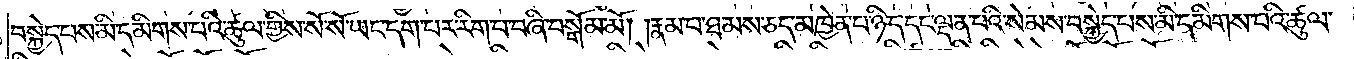བསྐྱེད་པས་མི་དམིགས་པའི་ཚུལ་གྱིས་སོ་སོ་ཡང་དག་པར་རིག་པ་བཞི་བསྒོམ་མོ། །རྣམ་པ་ཐམས་ཅད་མཁྱེན་པ་ཉིད་དང་ལྡན་པའི་སེམས་བསྐྱེད་པས་མི་དམིགས་པའི་ཚུལ་
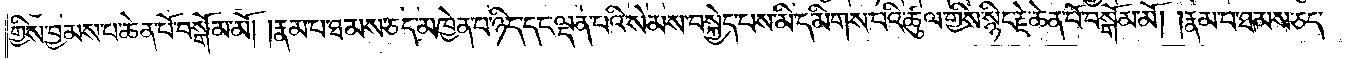གྱིས་བྱམས་པ་ཆེན་པོ་བསྒོམ་མོ། །རྣམ་པ་ཐམས་ཅད་མཁྱེན་པ་ཉིད་དང་ལྡན་པའི་སེམས་བསྐྱེད་པས་མི་དམིགས་པའི་ཚུལ་གྱིས་སྙིང་རྗེ་ཆེན་པོ་བསྒོམ་མོ། །རྣམ་པ་ཐམས་ཅད་
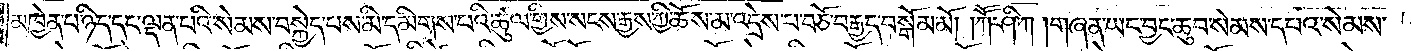མཁྱེན་པ་ཉིད་དང་ལྡན་པའི་སེམས་བསྐྱེད་པས་མི་དམིགས་པའི་ཚུལ་གྱིས་སངས་རྒྱས་ཀྱི་ཆོས་མ་འདྲེས་པ་བཅོ་བརྒྱད་བསྒོམ་མོ། །ཀཽ་ཤི་ཀ །གཞན་ཡང་བྱང་ཆུབ་སེམས་དཔའ་སེམས་
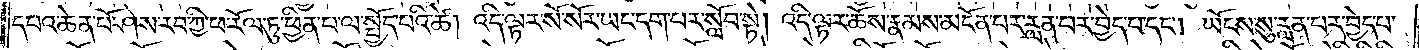དཔའ་ཆེན་པོ་ཤེས་རབ་ཀྱི་ཕ་རོལ་ཏུ་ཕྱིན་པ་ལ་སྤྱོད་པའི་ཚེ། འདི་ལྟར་སོ་སོར་ཡང་དག་པར་སློབ་སྟེ། འདི་ལྟར་ཆོས་རྣམས་མངོན་པར་རླན་པར་བྱེད་པ་དང༌། ཡོངས་སུ་རླན་པར་བྱེད་པ་
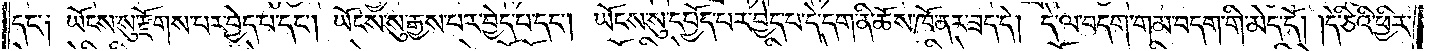དང༌༏ ཡོངས་སུ་རྫོགས་པར་བྱེད་པ་དང༌། ཡོངས་སུ་རྒྱས་པར་བྱེད་པ་དང༌། ཡོངས་སུ་དཔྱོད་པར་བྱེད་པ་དེ་དག་ནི་ཆོས་ཁོ་ནར་ཟད་དེ། དེ་ལ་བདག་གམ་བདག་གི་མེད་དོ། །དེ་ཅིའི་ཕྱིར་
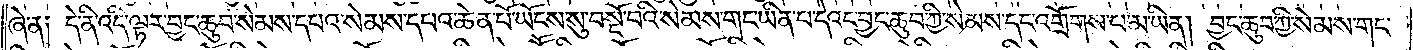ཞེ་ན༏ དེ་ནི་འདི་ལྟར་བྱང་ཆུབ་སེམས་དཔའ་སེམས་དཔའ་ཆེན་པོ་ཡོངས་སུ་བསྔོ་བའི་སེམས་གང་ཡིན་པ་དེའང་བྱང་ཆུབ་ཀྱི་སེམས་དང་འགྲོགས་པ་མ་ཡིན། བྱང་ཆུབ་ཀྱི་སེམས་གང་
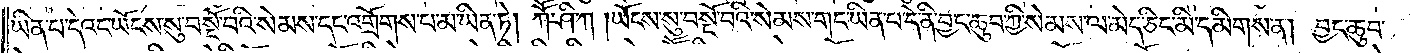ཡིན་པ་དེའང་ཡོངས་སུ་བསྔོ་བའི་སེམས་དང་འགྲོགས་པ་མ་ཡིན་ཏེ། ཀཽ་ཤི་ཀ །ཡོངས་སུ་བསྔོ་བའི་སེམས་གང་ཡིན་པ་དེ་ནི་བྱང་ཆུབ་སེམས་ལ་མེད་ཅིང་མི་དམིགས་ན། བྱང་ཆུབ་
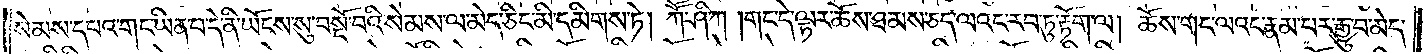སེམས་གང་ཡིན་པ་དེ་ནི་ཡོངས་སུ་བསྔོ་བའི་སེམས་ལ་མེད་ཅིང་མི་དམིགས་ཏེ། ཀཽ་ཤི་ཀ །གང་དེ་ལྟར་ཆོས་ཐམས་ཅད་ལའང་རབ་ཏུ་རྟོག་ལ། ཆོས་གང་ལའང་རྣམ་པར་རྒྱུ་བ་མེད་
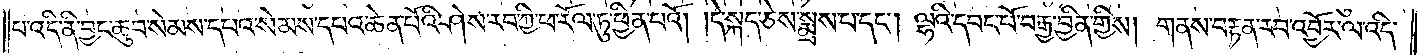པ་འདི་ནི་བྱང་ཆུབ་སེམས་དཔའ་སེམས་དཔའ་ཆེན་པོའི་ཤེས་རབ་ཀྱི་ཕ་རོལ་ཏུ་ཕྱིན་པའོ། །དེ་སྐད་ཅེས་སྨྲས་པ་དང༌། ལྷའི་དབང་པོ་བརྒྱ་བྱིན་གྱིས། གནས་བརྟན་རབ་འབྱོར་ལ་འདི་
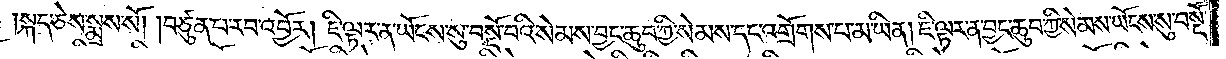སྐད་ཅེས་སྨས་སོ། །བཙུན་པ་རབ་འབྱོར། ཇི་ལྟར་ན་ཡོངས་སུ་བསྔོ་བའི་སེམས་བྱང་ཆུབ་ཀྱི་སེམས་དང་འགྲོགས་པ་མ་ཡིན། ཇི་ལྟར་ན་བྱང་ཆུབ་ཀྱི་སེམས་ཡོངས་སུ་བསྔོ་
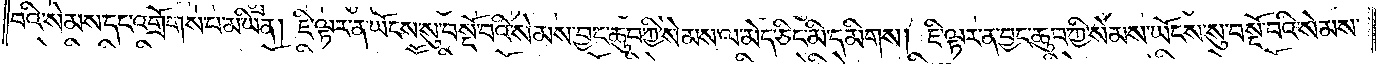བའི་སེམས་དང་འགྲོགས་པ་མ་ཡིན། ཇི་ལྟར་ན་ཡོངས་སུ་བསྔོ་བའི་སེམས་བྱང་ཆུབ་ཀྱི་སེམས་ལ་མེད་ཅིང་མི་དམིགས། ཇི་ལྟར་ན་བྱང་ཆུབ་ཀྱི་སེམས་ཡོངས་སུ་བསྔོ་བའི་སེམས་
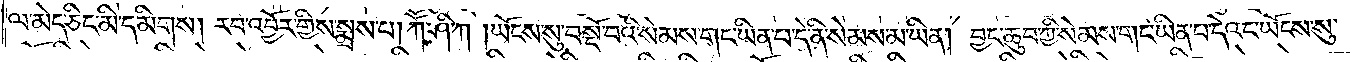ལ་མེད་ཅིང་མི་དམིགས། རབ་འབྱོར་གྱིས་སྨྲས་པ། ཀཽ་ཤི་ཀ །ཡོངས་སུ་བསྔོ་བའི་སེམས་གང་ཡིན་པ་དེ་ནི་སེམས་མ་ཡིན། བྱང་ཆུབ་ཀྱི་སེམས་གང་ཡིན་པ་དེའང་ཡོངས་སུ་
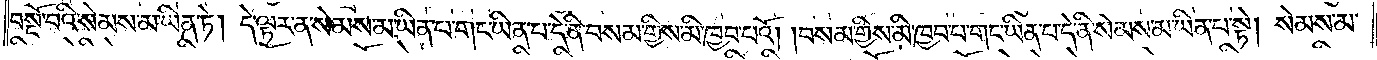བསྔོ་བའི་སེམས་མ་ཡིན་ཏེ། དེ་ལྟར་ན་སེམས་མ་ཡིན་པ་གང་ཡིན་པ་དེ་ནི་བསམ་གྱིས་མི་ཁྱབ་པའོ། །བསམ་གྱིས་མི་ཁྱབ་པ་གང་ཡིན་པ་དེ་ནི་སེམས་མ་ཡིན་པ་སྟེ། སེམས་མ་
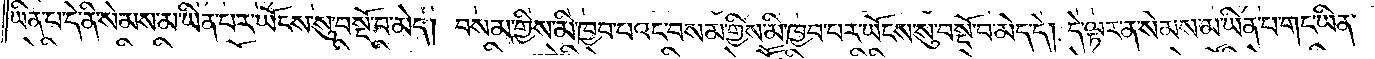ཡིན་པ་དེ་ནི་སེམས་མ་ཡིན་པར་ཡོངས་སུ་བསྔོ་བ་མེད། བསམ་གྱིས་མི་ཁྱབ་པའང་བསམ་གྱིས་མི་ཁྱབ་པར་ཡོངས་སུ་བསྔོ་བ་མེད་དེ། དེ་ལྟར་ན་སེམས་མ་ཡིན་པ་གང་ཡིན་
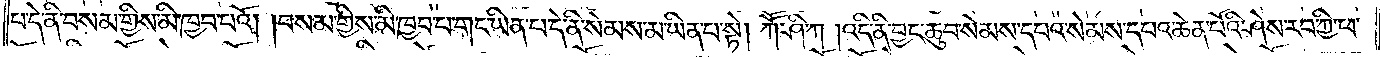པ་དེ་ནི་བསམ་གྱིས་མི་ཁྱབ་པའོ། །བསམ་གྱིས་མི་ཁྱབ་པ་གང་ཡིན་པ་དེ་ནི་སེམས་མ་ཡིན་པ་སྟེ། ཀཽ་ཤི་ཀ །འདི་ནི་བྱང་ཆུབ་སེམས་དཔའ་སེམས་དཔའ་ཆེན་པོའི་ཤེས་རབ་ཀྱི་ཕ་
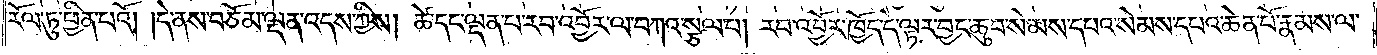རོལ་ཏུ་ཕྱིན་པའོ། །དེ་ནས་བཅོམ་ལྡན་འདས་ཀྱིས། ཚེ་དང་ལྡན་པ་རབ་འབྱོར་ལ་བཀའ་སྩལ་པ། རབ་འབྱོར་ཁྱོད་དེ་ལྟར་བྱང་ཆུབ་སེམས་དཔའ་སེམས་དཔའ་ཆེན་པོ་རྣམས་ལ་
